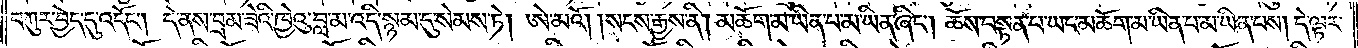བཀུར་བྱེད་དུ་འདོང༌། དེ་ནས་བྲམ་ཟེའི་ཁྱེའུ་བླ་མ་འདི་སྙམ་དུ་སེམས་ཏེ། ཨེ་མའོ། །སངས་རྒྱས་ནི། མཆོག་མ་ཡིན་པ་མ་ཡིན་ཞིང༌། ཆོས་བསྟན་པ་ཡང་མཆོག་མ་ཡིན་པ་མ་ཡིན་པས། དེ་ལྟར་
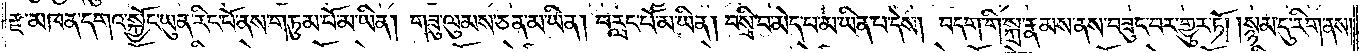རྫ་མཁན་དགའ་སྐྱོང་ཡུན་རིང་པོ་ནས་གཏུམ་པོ་མ་ཡིན། གཟུ་ལུམས་ཅན་མ་ཡིན། བརླང་པོ་མ་ཡིན། བསྲི་བ་མེད་པ་མ་ཡིན་པ་དེས། བདག་གི་སྐྲ་རྣམས་ནས་བཟུང་བར་གྱུར་ཏོ། །སྙམ་དུ་རིག་ནས།
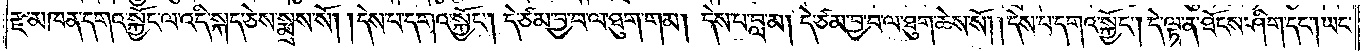རྫ་མཁན་དགའ་སྐྱོང་ལ་འདི་སྐད་ཅེས་སྨྲས་སོ། །དེས་པ་དགའ་སྐྱོང༌། དེ་ཙམ་བྱ་བ་ལ་ཐུག་གམ། དེས་པ་བླ་མ། དེ་ཙམ་བྱ་བ་ལ་ཐུག་ཆེས་སོ། །དེས་པ་དགའ་སྐྱོང༌། དེ་ལྟ་ན་ཐོངས་ཤིག་དང༌། ཡང་
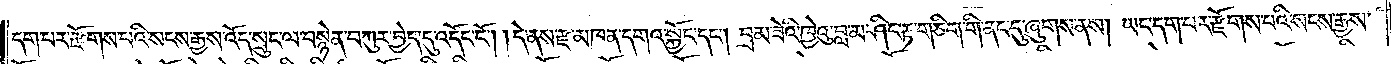དག་པར་རྫོགས་པའི་སངས་རྒྱས་འོད་སྲུང་ལ་བསྙེན་བཀུར་བྱེད་དུ་འདོང་ངོ༌། །དེ་ནས་རྫ་མཁན་དགའ་སྐྱོང་དང༌། བྲམ་ཟེའི་ཁྱེའུ་བླ་མ་ཤིང་རྟ་གཅིག་གི་ནང་དུ་ཞུགས་ནས། ཡང་དག་པར་རྫོགས་པའི་སངས་རྒྱས་
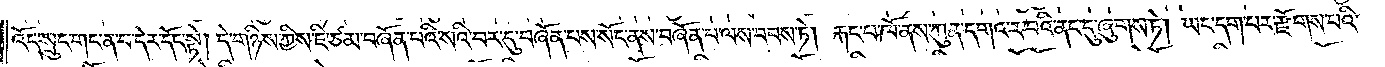འོད་སྲུང་གང་ན་བ་དེར་དོང་སྟེ། དེ་གཉིས་ཀྱིས་ཇི་ཙམ་བཞོན་པའི་སའི་བར་དུ་བཞོན་པས་སོང་ནས་བཞོན་པ་ལས་བབས་ཏེ། རྐང་པ་ཁོ་ནས་ཀུན་དགའ་ར་བའི་ནང་དུ་ཞུགས་ཏེ། ཡང་དག་པར་རྫོགས་པའི་
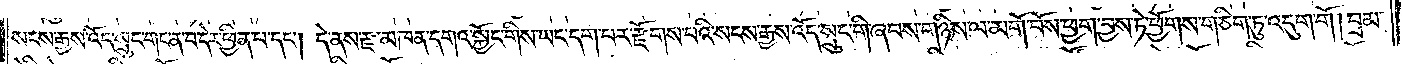སངས་རྒྱས་འོད་སྲུང་གང་ན་བ་དེར་ཕྱིན་པ་དང༌། དེ་ནས་རྫ་མཁན་དགའ་སྐྱོང་གིས་ཡང་དག་པར་རྫོགས་པའི་སངས་རྒྱས་འོད་སྲུང་གི་ཞབས་གཉིས་ལ་མགོ་བོས་ཕྱག་བྱས་ཏེ་ཕྱོགས་གཅིག་ཏུ་འདུག་གོ། བྲམ་
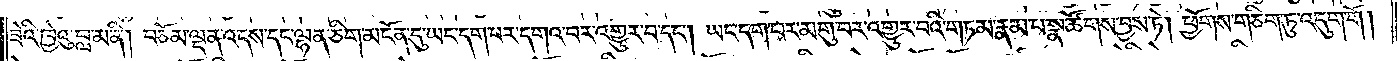ཟེའི་ཁྱེའུ་བླ་མ་ནི། བཅོམ་ལྡན་འདས་དང་ལྷན་ཅིག་མངོན་དུ་ཡང་དག་པར་དགའ་བར་འགྱུར་བ་དང༌། ཡང་དག་པར་མགུ་བར་འགྱུར་བའི་གཏམ་རྣམ་པ་སྣ་ཚོགས་བྱས་ཏེ། ཕྱོགས་གཅིག་ཏུ་འདུག་གོ།
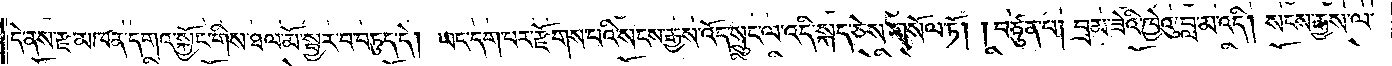དེ་ནས་རྫ་མཁན་དགའ་སྐྱོང་གིས་ཐལ་མོ་སྦྱར་བ་བཏུད་དེ། ཡང་དག་པར་རྫོགས་པའི་སངས་རྒྱས་འོད་སྲུང་ལ་འདི་སྐད་ཅེས་གསོལ་ཏོ། །བཙུན་པ། བྲམ་ཟེའི་ཁྱེའུ་བླ་མ་འདི། སངས་རྒྱས་ལ་
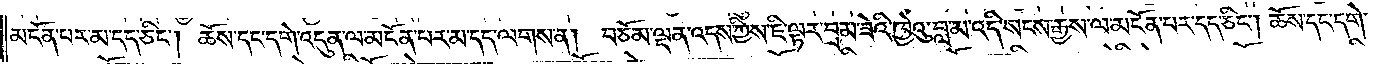མངོན་པར་མ་དད་ཅིང༌། ཆོས་དང་དགེ་འདུན་ལ་མངོན་པར་མ་དད་ལགས་ན། བཅོམ་ལྡན་འདས་ཀྱིས་ཇི་ལྟར་བྲམ་ཟེའི་ཁྱེའུ་བླ་མ་འདི་སངས་རྒྱས་ལ་མངོན་པར་དད་ཅིང༌། ཆོས་དང་དགེ་
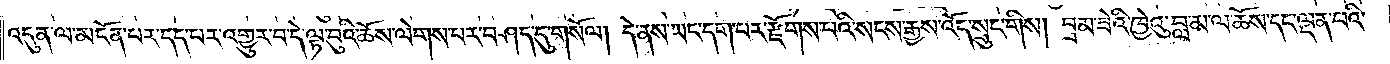འདུན་ལ་མངོན་པར་དད་པར་འགྱུར་བ་དེ་ལྟ་བུའི་ཆོས་ལེགས་པར་བཤད་དུ་གསོལ། དེ་ནས་ཡང་དག་པར་རྫོགས་པའི་སངས་རྒྱས་འོད་སྲུང་གིས། བྲམ་ཟེའི་ཁྱེའུ་བླ་མ་ལ་ཆོས་དང་ལྡན་པའི་
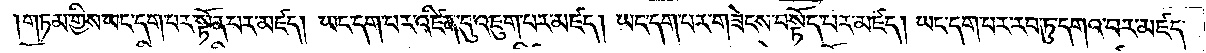གཏམ་གྱིས་ཡང་དག་པར་སྟོན་པར་མཛད། ཡང་དག་པར་འཛིན་དུ་འཇུག་པར་མཛད། ཡང་དག་པར་གཟེངས་བསྟོད་པར་མཛད། ཡང་དག་པར་རབ་ཏུ་དགའ་བར་མཛད་
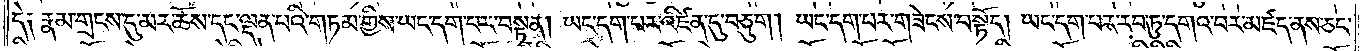དེ། རྣམ་གྲངས་དུ་མར་ཆོས་དང་ལྡན་པའི་གཏམ་གྱིས་ཡང་དག་པར་བསྟན། ཡང་དག་པར་འཛིན་དུ་བཅུག །ཡང་དག་པར་གཟེངས་བསྟོད། ཡང་དག་པར་རབ་ཏུ་དགའ་བར་མཛད་ནས་ཅང་
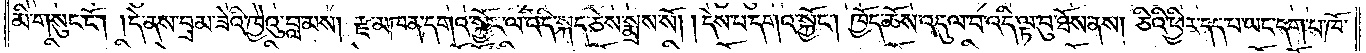མི་གསུང་ངོ༌། །དེ་ནས་བྲམ་ཟེའི་ཁྱེའུ་བླ་མས། རྫ་མཁན་དགའ་སྐྱོང་ལ་འདི་སྐད་ཅེས་སྨྲས་སོ། །དེས་པ་དགའ་སྐྱོང༌། ཁྱོད་ཆོས་འདུལ་བ་འདི་ལྟ་བུ་ཐོས་ནས། ཅིའི་ཕྱིར་དད་པ་ཡང་དག་པ་ཁོ་
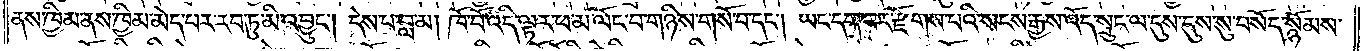ནས་ཁྱིམ་ནས་ཁྱིམ་མེད་པར་རབ་ཏུ་མི་འབྱུང༌། དེས་པ་བླ་མ། ཁོ་བོ་འདི་ལྟར་ཕ་མ་ལོང་བ་གཉིས་གསོ་བ་དང༌། ཡང་དག་པར་རྫོགས་པའི་སངས་རྒྱས་འོད་སྲུང་ལ་དུས་དུས་སུ་བསོད་སྙོམས་
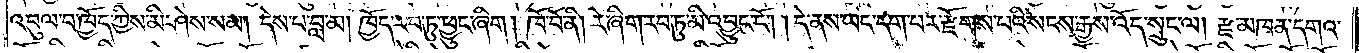འབུལ་བ་ཁྱོད་ཀྱིས་མི་ཤེས་སམ། དེས་པ་བླ་མ། ཁྱོད་རབ་ཏུ་ཕྱུང་ཞིག །ཁོ་བོ་ནི། རེ་ཞིག་རབ་ཏུ་མི་འབྱུང་ངོ༌། །དེ་ནས་ཡང་དག་པར་རྫོགས་པའི་སངས་རྒྱས་འོད་སྲུང་ལ། རྫ་མཁན་དགའ་
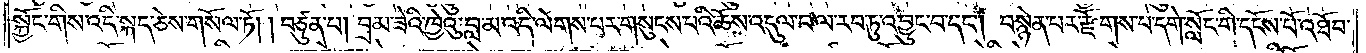སྐྱོང་གིས་འདི་སྐད་ཅེས་གསོལ་ཏོ། །བཙུན་པ། བྲམ་ཟེའི་ཁྱེའུ་བླ་མ་འདི་ལེགས་པར་གསུངས་པའི་ཆོས་འདུལ་བ་ལ་རབ་ཏུ་འབྱུང་བ་དང༌། བསྙེན་པར་རྫོགས་པ་དགེ་སློང་གི་དངོས་པོ་འཐོབ་
